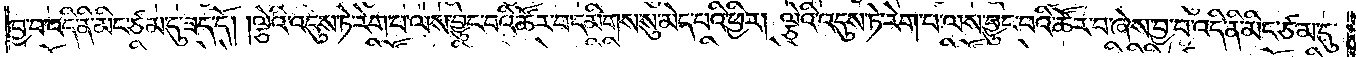བྱ་བ་འདི་ནི་མིང་ཙམ་དུ་ཟད་དོ། །ལྕེའི་འདུས་ཏེ་རེག་པ་ལས་བྱུང་བའི་ཚོར་བ་དམིགས་སུ་མེད་པའི་ཕྱིར། ལྕེའི་འདུས་ཏེ་རེག་པ་ལས་བྱུང་བའི་ཚོར་བ་ཞེས་བྱ་བ་འདི་ནི་མིང་ཙམ་དུ་
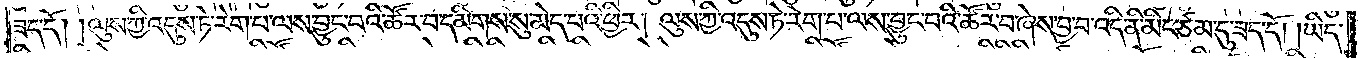ཟད་དོ། །ལུས་ཀྱི་འདུས་ཏེ་རེག་པ་ལས་བྱུང་བའི་ཚོར་བ་དམིགས་སུ་མེད་པའི་ཕྱིར། ལུས་ཀྱི་འདུས་ཏེ་རེག་པ་ལས་བྱུང་བའི་ཚོར་བ་ཞེས་བྱ་བ་འདི་ནི་མིང་ཙམ་དུ་ཟད་དོ། །ཡིད་
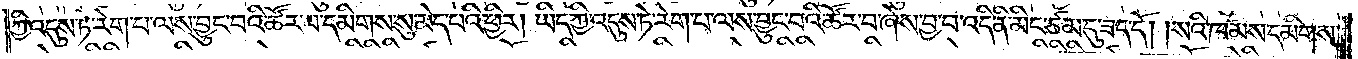ཀྱི་འདུས་ཏེ་རེག་པ་ལས་བྱུང་བའི་ཚོར་བ་དམིགས་སུ་མེད་པའི་ཕྱིར། ཡིད་ཀྱི་འདུས་ཏེ་རེག་པ་ལས་བྱུང་བའི་ཚོར་བ་ཞེས་བྱ་བ་འདི་ནི་མིང་ཙམ་དུ་ཟད་དོ། །སའི་ཁམས་དམིགས་
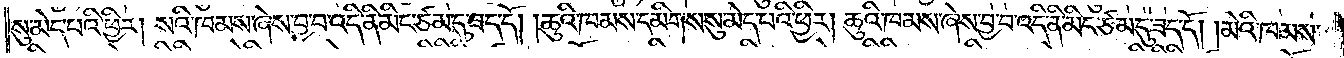སུ་མེད་པའི་ཕྱིར། སའི་ཁམས་ཞེས་བྱ་བ་འདི་ནི་མིང་ཙམ་དུ་ཟད་དོ། །ཆུའི་ཁམས་དམིགས་སུ་མེད་པའི་ཕྱིར། ཆུའི་ཁམས་ཞེས་བྱ་བ་འདི་ནི་མིང་ཙམ་དུ་ཟད་དོ། །མེའི་ཁམས་
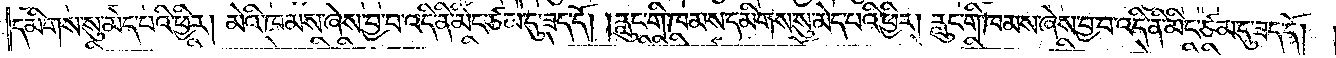དམིགས་སུ་མེད་པའི་ཕྱིར། མེའི་ཁམས་ཞེས་བྱ་བ་འདི་ནི་མིང་ཙམ་དུ་ཟད་དོ། །རླུང་གི་ཁམས་དམིགས་སུ་མེད་པའི་ཕྱིར། རླུང་གི་ཁམས་ཞས་བྱ་བ་འདི་ནི་མིང་ཙམ་དུ་ཟད་དོ། །
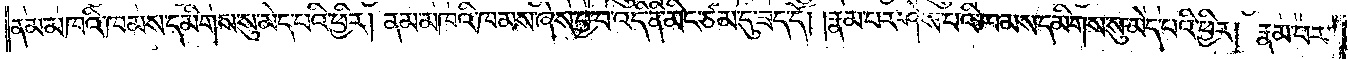ནམ་མཁའི་ཁམས་དམིགས་སུ་མེད་པའི་ཕྱིར། ནམ་མཁའི་ཁམས་ཞེས་བྱ་བ་འདི་ནི་མིང་ཙམ་དུ་ཟད་དོ། །རྣམ་པར་ཤེས་པའི་ཁམས་དམིགས་སུ་མེད་པའི་ཕྱིར། རྣམ་པར་
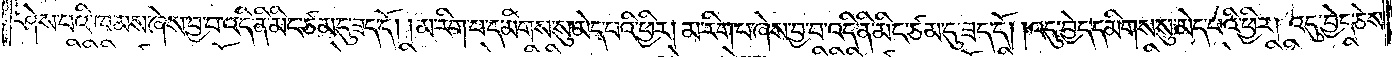ཤེས་པའི་ཁམས་ཞེས་བྱ་བ་འདི་ནི་མིང་ཙམ་དུ་ཟད་དོ། །མ་རིག་པ་དམིགས་སུ་མེད་པའི་ཕྱིར། མ་རིག་པ་ཞེས་བྱ་བ་འདི་ནི་མིང་ཙམ་དུ་ཟད་དོ། །འདུ་བྱེད་དམིགས་སུ་མེད་པའི་ཕྱིར། འདུ་བྱེད་ཅེས་
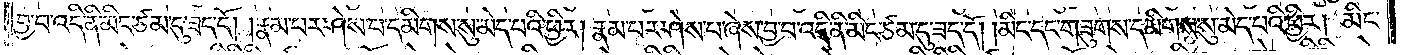བྱ་བ་འདི་ནི་མིང་ཙམ་དུ་ཟད་དོ། །རྣམ་པར་ཤེས་པ་དམིགས་སུ་མེད་པའི་ཕྱིར། རྣམ་པར་ཤེས་པ་ཞེས་བྱ་བ་འདི་ནི་མིང་ཙམ་དུ་ཟད་དོ། །མིང་དང་གཟུགས་དམིགས་སུ་མེད་པའི་ཕྱིར། མིང་
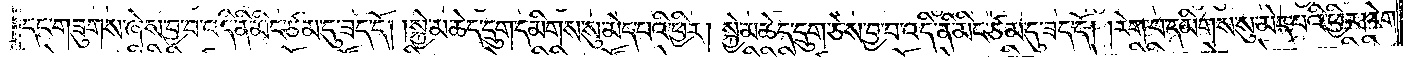དང་གཟུགས་ཞེས་བྱ་བ་འདི་ནི་མིང་ཙམ་དུ་ཟད་དོ། །སྐྱེ་མཆེད་དྲུག་དམིགས་སུ་མེད་པའི་ཕྱིར། སྐྱེ་མཆེད་དྲུག་ཅེས་བྱ་བ་འདི་ནི་མིང་ཙམ་དུ་ཟད་དོ། །རེག་པ་དམིགས་སུ་མེད་པའི་ཕྱིར། རེག་
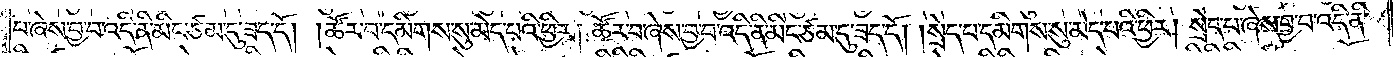པ་ཞེས་བྱ་བ་འདི་ནི་མིང་ཙམ་དུ་ཟད་དོ། །ཚོར་བ་དམིགས་སུ་མེད་པའི་ཕྱིར། ཚོར་བ་ཞེས་བྱ་བ་འདི་ནི་མིང་ཙམ་དུ་ཟད་དོ། །སྲེད་པ་དམིགས་སུ་མེད་པའི་ཕྱིར། སྲེད་པ་ཞེས་བྱ་བ་འདི་ནི་
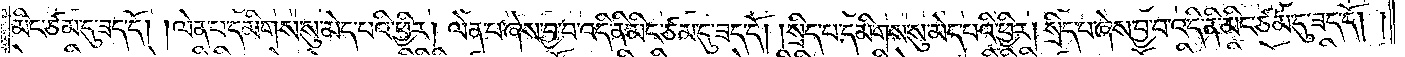མིང་ཙམ་དུ་ཟད་དོ། །ལེན་པ་དམིགས་སུ་མེད་པའི་ཕྱིར། ལེན་པ་ཞེས་བྱ་བ་འདི་ནི་མིང་ཙམ་དུ་ཟད་དོ། །སྲིད་པ་དམིགས་སུ་མེད་པའི་ཕྱིར། སྲིད་པ་ཞེས་བྱ་བ་འདི་ནི་མིང་ཙམ་དུ་ཟད་དོ༎
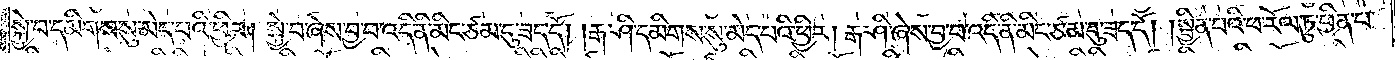སྐྱེ་བ་དམིགས་སུ་མེད་པའི་ཕྱིར། སྐྱེ་བ་ཞེས་བྱ་བ་འདི་ནི་མིང་ཙམ་དུ་ཟད་དོ། །རྒ་ཤི་དམིགས་སུ་མེད་པའི་ཕྱིར། རྒ་ཤི་ཞེས་བྱ་བ་འདི་ནི་མིང་ཙམ་དུ་ཟད་དོ། །སྦྱིན་པའི་ཕ་རོལ་ཏུ་ཕྱིན་པ་
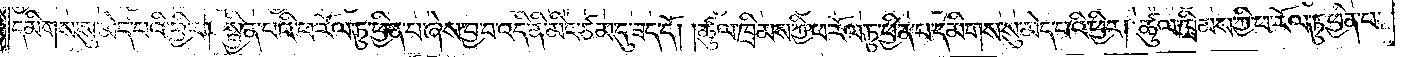དམིགས་སུ་མེད་པའི་ཕྱིར། སྦྱིན་པའི་ཕ་རོལ་ཏུ་ཕྱིན་པ་ཞེས་བྱ་བ་འདི་ནི་མིང་ཙམ་དུ་ཟད་དོ། །ཚུལ་ཁྲིམས་ཀྱི་ཕ་རོལ་ཏུ་ཕྱིན་པ་དམིགས་སུ་མེད་པའི་ཕྱིར། ཚུལ་ཁྲིམས་ཀྱི་ཕ་རོལ་ཏུ་ཕྱིན་པ་
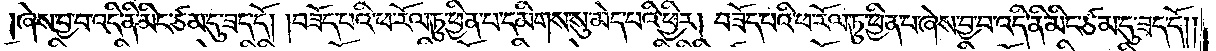ཞེས་བྱ་བ་འདི་ནི་མིང་ཙམ་དུ་ཟད་དོ། །བཟོད་པའི་ཕ་རོལ་ཏུ་ཕྱིན་པ་དམིགས་སུ་མེད་པའི་ཕྱིར། བཟོད་པའི་ཕ་རོལ་ཏུ་ཕྱིན་པ་ཞེས་བྱ་བ་འདི་ནི་མིང་ཙམ་དུ་ཟད་དོ། །
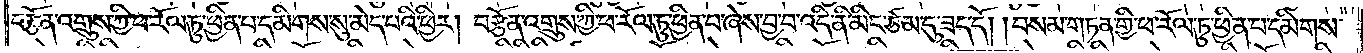བརྩོན་འགྲུས་ཀྱི་ཕ་རོལ་ཏུ་ཕྱིན་པ་དམིགས་སུ་མེད་པའི་ཕྱིར། བརྩོན་འགྲུས་ཀྱི་ཕ་རོལ་ཏུ་ཕྱིན་པ་ཞེས་བྱ་བ་འདི་ནི་མིང་ཙམ་དུ་ཟད་དོ། །བསམ་གཏན་གྱི་ཕ་རོལ་ཏུ་ཕྱིན་པ་དམིགས་
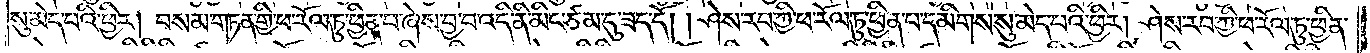སུ་མེད་པའི་ཕྱིར། བསམ་གཏན་གྱི་ཕ་རོལ་ཏུ་ཕྱིན་པ་ཞེས་བྱ་བ་འདི་ནི་མིང་ཙམ་དུ་ཟད་དོ། ཤེས་རབ་ཀྱི་ཕ་རོལ་ཏུ་ཕྱིན་པ་དམིགས་སུ་མེད་པའི་ཕྱིར། ཤེས་རབ་ཀྱི་ཕ་རོལ་ཏུ་ཕྱིན་
